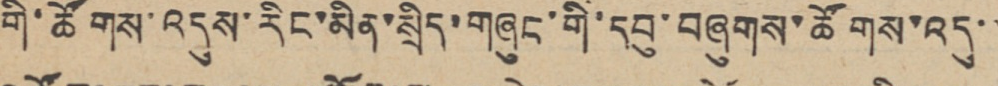གི་ཚོགས་འདུས་རིང་མིན་སྲིད་གཞུང་གི་དབུ་བཞུགས་ཚོགས་འདུ་་
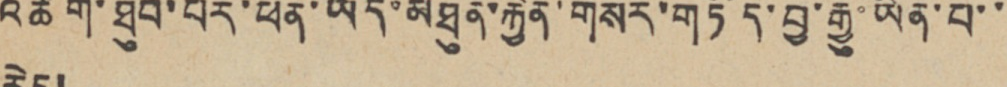འཚོག་ཐུབ་པར་ཕན་ཡོད་མཐུན་རྐྱེན་གསར་གཏོད་བྱ་རྒྱུ་ཡིན་པ་་
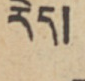རེད།
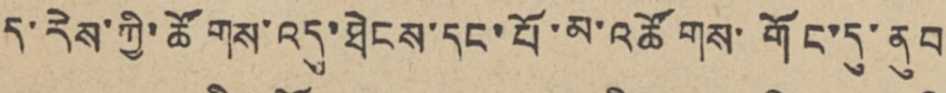ད་རེས་ཀྱི་ཚོགས་འདུ་ཐེངས་དང་པོ་མ་འཚོགས་གོང་དུ་ནུབ
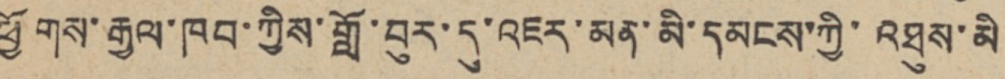ཕྱོགས་རྒྱལ་ཁབ་ཀྱིས་གློ་བུར་དུ་འཇར་མན་མི་དམངས་ཀྱི་འཐུས་མི
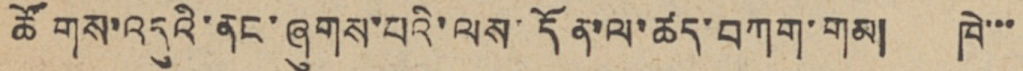ཚོགས་འདུའི་ནང་ཞུགས་པའི་ལས་དོན་ལ་ཚད་བཀག་གམ། ཁེ་་་
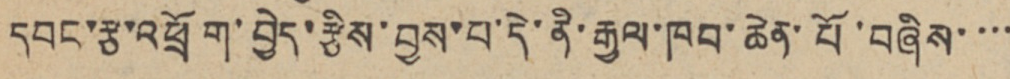དབང་རྩ་འཕྲོག་བྱེད་རྩིས་བྱས་པ་དེ་ནི་རྒྱལ་ཁབ་ཆེན་པོ་བཞིས་་་་
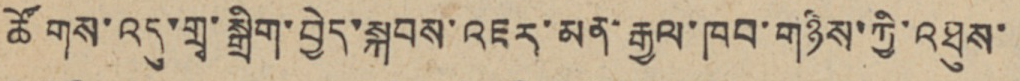ཚོགས་འདུ་གྲྭ་སྒྲིག་བྱེད་སྐབས་འཇར་མན་རྒྱལ་ཁབ་གཉིས་ཀྱི་འཐུས་
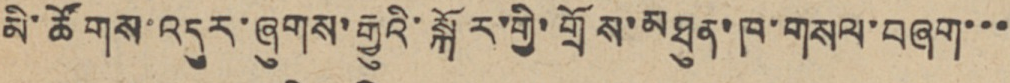མི་ཚོགས་འདུར་ཞུགས་རྒྱུའི་སྐོར་གྱི་གྲོས་མཐུན་ཁ་གསལ་བཞག་་་
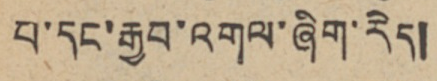པ་དང་རྒྱབ་འགལ་ཞིག་རེད།
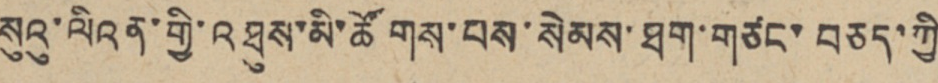སུའུ་ལིའན་གྱི་འཐུས་མི་ཚོགས་པས་སེམས་ཐག་གཙང་བཅད་ཀྱི
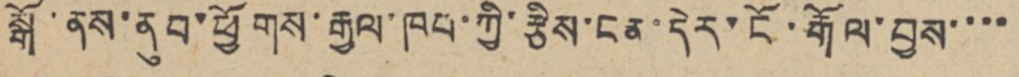སྒོ་ནས་ནུབ་ཕྱོགས་རྒྱལ་ཁབ་ཀྱི་རྩིས་ངན་དེར་ངོ་རྒོལ་བྱས་་་་
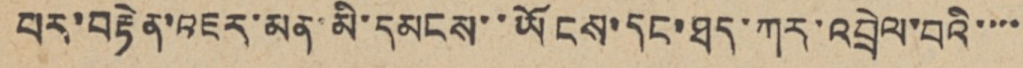བར་བརྟེན་འཇར་མན་མི་དམངས་་ཡོངས་དང་ཐད་ཀར་འབྲེལ་བའི་་་་
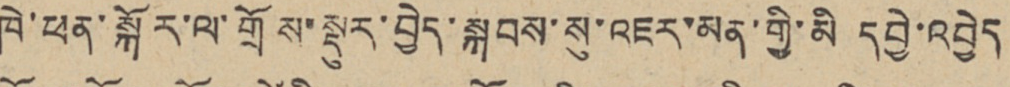ཁེ་ཕན་སྐོར་ལ་གྲོས་སྡུར་བྱེད་སྐབས་སུ་འཇར་མན་གྱི་མི དབྱེ་འབྱེད
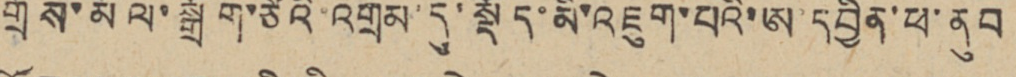གྲོས་མོལ་སྒྲོག་ཙེའི་འགྲམ་དུ་སྡོད་མི་འཇུག་པའི་ཨ་དབྱིན་ཕ་ནུབ
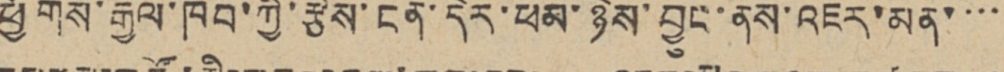ཕྱོགས་རྒྱལ་ཁབ་ཀྱི་རྩིས་ངན་དེར་ཕམ་ཉེས་བྱུང་ནས་འཇར་མན་་་་
